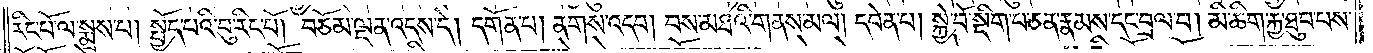རིང་པོ་ལ་སྨྲས་པ། སྤྱོད་པའི་བུ་རིང་པོ། བཅོམ་ལྡན་འདས་དེ། དགོན་པ། ནགས་འདབ། བས་མཐའི་གནས་མལ། དབེན་པ། སྐྱེ་བོ་སྡིག་པ་ཅན་རྣམས་དང་བྲལ་བ། མི་ཆིག་རྐྱ་ཐུབ་པས་
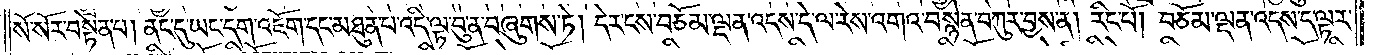སོ་སོར་བསྟེན་པ། ནང་དུ་ཡང་དག་འཇོག་དང་མཐུན་པ་འདི་ལྟ་བུ་ན་བཞུགས་ཏེ། དེར་ངས་བཅོམ་ལྡན་འདས་དེ་ལ་རེས་འགའ་བསྙེན་བཀུར་བྱས་ན། རིང་པོ། བཅོམ་ལྡན་འདས་དེ་ལྟར་
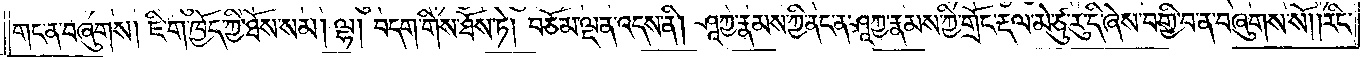གང་ན་བཞུགས། ཇི་ག་ཁྱོད་ཀྱི་ཐོས་སམ། ལྷ། བདག་གིས་ཐོས་ཏེ། བཅོམ་ལྡན་འདས་ནི། ཤཱཀྱ་རྣམས་ཀྱི་ནང་ན་ཤཱཀྱ་རྣམས་ཀྱི་གྲོང་རྡལ་མེ་ཙུ་རུ་དི་ཞེས་བགྱི་བ་ན་བཞུགས་སོ། །རིང་
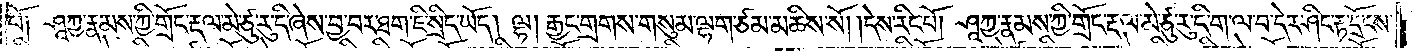པོ། ཤཱཀྱ་རྣམས་ཀྱི་གྲོང་རྡལ་མེ་ཙུ་རུ་དི་ཞེས་བྱ་བར་ཐག་ཇི་སྲིད་ཡོད། ལྷ། རྒྱང་གྲགས་གསུམ་ལྷག་ཙམ་མཆིས་སོ། །དེས་རིང་པོ། ཤཱཀྱ་རྣམས་ཀྱི་གྲོང་རྡལ་མེ་ཙུ་རུ་དི་ག་ལ་བ་དེར་ཤིང་རྟ་དྲོངས་
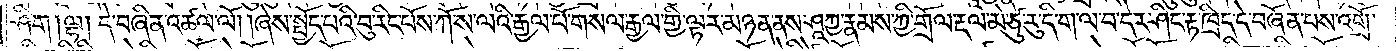ཤིག །ལྷ། དེ་བཞིན་འཚལ་ལོ། །ཞེས་སྤྱོད་པའི་བུ་རིང་པོས་ཀོ་ས་ལའི་རྒྱལ་པོ་གསལ་རྒྱལ་གྱི་ལྟར་མཉན་ནས་ཤཱཀྱ་རྣམས་ཀྱི་གྲོལ་རྡལ་མེ་ཙུ་རུ་དི་ག་ལ་བ་དེར་ཤིང་རྟ་ཁྲིད་དེ་བཞོན་པས་འགྲོ་
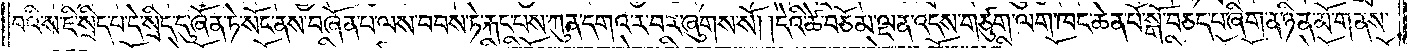བའི་ས་ཇི་སྲིད་པ་དེ་སྲིད་དུ་ཞོན་ཏེ་སོང་ནས་བཞོན་པ་ལས་བབས་ཏེ་རྐང་པས་ཀུན་དགའ་ར་བར་ཞུགས་སོ། །དེའི་ཚེ་བཅོམ་ལྡན་འདས་གཙུག་ལག་ཁང་ཆེན་པོ་སྒོ་བཅད་པ་ཞིག་ན་ཉིན་མོ་གནས་
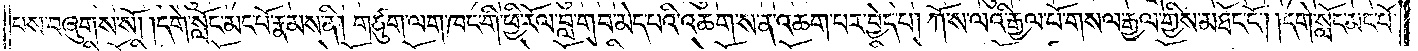པས་བཞུགས་སོ། །དགེ་སློང་མང་པོ་རྣམས་ནི། གཙུག་ལག་ཁང་གི་ཕྱི་རོལ་བླ་གབ་མེད་པའི་འཆག་ས་ན་འཆག་པར་བྱེད་པ། ཀོ་ས་ལའི་རྒྱལ་པོ་གསལ་རྒྱལ་གྱིས་མཐོང་ངོ༌། །དགེ་སློང་མང་པོ་
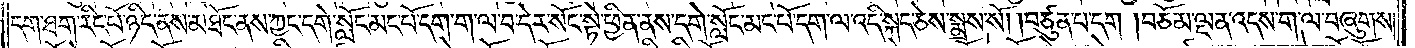དག་ཐག་རིང་པོ་ཉིད་ནས་མཐོང་ནས་ཀྱང་དགེ་སློང་མང་པོ་དག་ག་ལ་བ་དེར་སོང་སྟེ་ཕྱིན་ནས་དགེ་སློང་མང་པོ་དག་ལ་འདི་སྐད་ཅེས་སྨྲས་སོ། །བཙུན་པ་དག །བཅོམ་ལྡན་འདས་ག་ལ་བཞུགས་
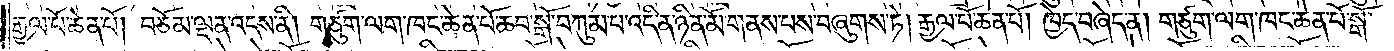རྒྱལ་པོ་ཆེན་པོ། བཅོམ་ལྡན་འདས་ནི། གཙུག་ལག་ཁང་ཆེན་པོ་ཆབ་སྒོ་བཀུམ་པ་འདི་ན་ཉིན་མོ་གནས་པས་བཞུགས་ཏེ། རྒྱལ་པོ་ཆེན་པོ། ཁྱེད་བཞེད་ན། གཙུག་ལག་ཁང་ཆེན་པོ་སྒོ་
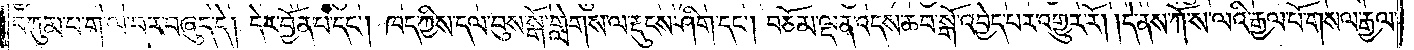བཀུམ་པ་ག་ལ་བར་བཞུད་དེ། དེར་བྱོན་པ་དང༌། ཁད་ཀྱིས་དལ་བུས་སྒོ་གླེགས་ལ་རྡུངས་ཤིག་དང༌། བཅོམ་ལྡན་འདས་ཆབ་སྒོ་འབྱེད་པར་འགྱུར་རོ། །དེ་ནས་ཀོ་ས་ལའི་རྒྱལ་པོ་གསལ་རྒྱལ་
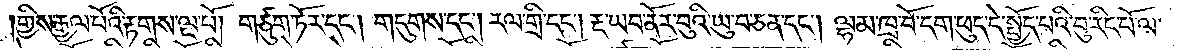གྱིས་རྒྱལ་པོའི་རྟགས་ལྔ་པོ། གཙུག་ཏོར་དང༌། གདུགས་དང༌། རལ་གྲི་དང༌། རྔ་ཡབ་ནོར་བུའི་ཡུ་བ་ཅན་དང༌། ལྷམ་ཁྲ་བོ་དག་ཕུད་དེ་སྤྱོད་པའི་བུ་རིང་པོ་ལ་
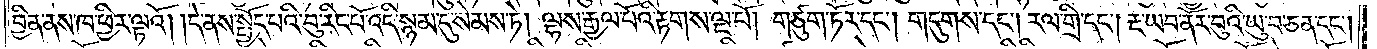བྱིན་ནས་ཁ་ཕྱིར་ལྟའོ། །དེ་ནས་སྤྱོད་པའི་བུ་རིང་པོ་འདི་སྙམ་དུ་སེམས་ཏེ། ལྷས་རྒྱལ་པོའི་རྟགས་ལྔ་པོ། གཙུག་ཏོར་དང༌། གདུགས་དང༌། རལ་གྲི་དང༌། རྔ་ཡབ་ནོར་བུའི་ཡུ་བ་ཅན་དང༌།
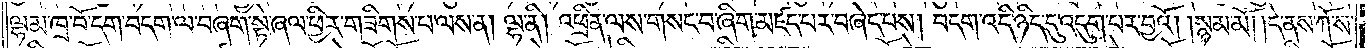ལྷམ་ཁྲ་བོ་དག་བདག་ལ་བཞག་སྟེ་ཞལ་ཕྱིར་གཟིགས་པ་ལས་ན། ལྷ་ནི། འཕྲིན་ལས་གསང་བ་ཞིག་མཛད་པར་བཞེད་པས། བདག་འདི་ཉིད་དུ་འདུག་པར་བྱའོ། །སྙམ་མོ། །དེ་ནས་ཀོ་ས་
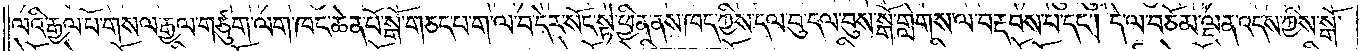ལའི་རྒྱལ་པོ་གསལ་རྒྱལ་གཙུག་ལག་ཁང་ཆེན་པོ་སྒོ་གཅད་པ་ག་ལ་བ་དེར་སོང་སྟེ་ཕྱིན་ནས་ཁད་ཀྱིས་དལ་བུ་དལ་བུས་སྒོ་གླེགས་ལ་བརྡབས་པ་དང༌། དེ་ལ་བཅོམ་ལྡན་འདས་ཀྱིས་སྒོ་
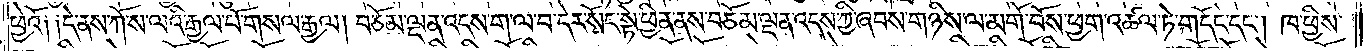ཕྱེའོ༑ ༑དེ་ནས་ཀོ་ས་ལའི་རྒྱལ་པོ་གསལ་རྒྱལ། བཅོམ་ལྡན་འདས་ག་ལ་བ་དེར་སོང་སྟེ་ཕྱིན་ནས་བཅོམ་ལྡན་འདས་ཀྱི་ཞབས་གཉིས་ལ་མགོ་བོས་ཕྱག་འཚལ་ཏེ་གདོང་དང༌། ཁ་ཕྱིས་
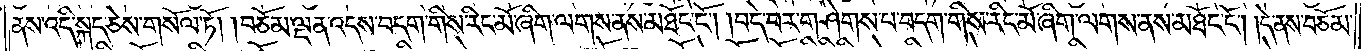ནས་འདི་སྐད་ཅེས་གསོལ་ཏོ། །བཅོམ་ལྡན་འདས་བདག་གིས་རིང་མོ་ཞིག་ལགས་ནས་མཐོང་ངོ༌། །བདེ་བར་གཤེགས་པ་བདག་གིས་རིང་མོ་ཞིག་ལགས་ནས་མཐོང་ངོ༌། །དེ་ནས་བཅོམ་
